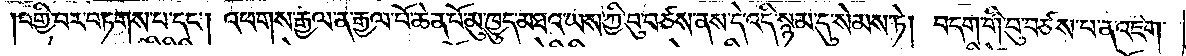བགྱི་བར་བཏགས་པ་དང༌། འཕགས་རྒྱལ་ན་རྒྱལ་པོ་ཆེན་པོ་མུ་ཁྱུད་མཐའ་ཡས་ཀྱི་བུ་བཙས་ནས་དེ་འདི་སྙམ་དུ་སེམས་ཏེ། བདག་གི་བུ་བཙས་པ་ན་འཇིག་
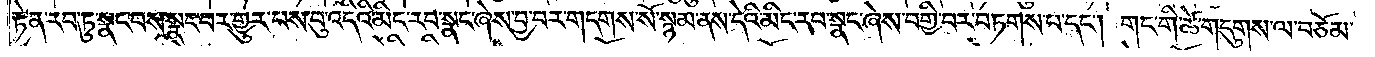རྟེན་རབ་ཏུ་སྣང་བས་སྣང་བར་གྱུར་བས་བུ་འདིའི་མིང་རབ་སྣང་ཞེས་བྱ་བར་གདགས་སོ་སྙམ་ནས་དེའི་མིང་རབ་སྣང་ཞེས་བགྱི་བར་བཏགས་པ་དང༌། གང་གི་ཚེ་གདུགས་ལ་བཅོམ་
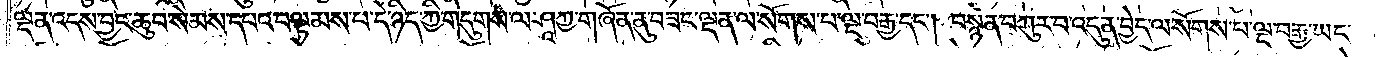ལྡན་འདས་བྱང་ཆུབ་སེམས་དཔའ་བལྟམས་པ་དེ་ཉིད་ཀྱི་གདུགས་ལ་ཤཱཀྱ་གཞོན་ནུ་བཟང་ལྡན་ལ་སོགས་པ་ལྔ་བརྒྱ་དང༌། བསྙེན་བཀུར་བ་འདུན་བྱེད་ལ་སོགས་པ་ལྔ་བརྒྱ་ཡང་
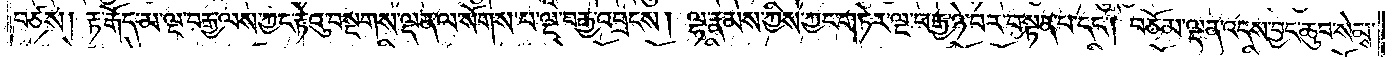བཙས། རྟ་རྒོད་མ་ལྔ་བརྒྱ་ལས་ཀྱང་རྟེའུ་བསྔགས་ལྡན་ལ་སོགས་པ་ལྔ་བརྒྱ་འབྲངས། ལྷ་རྣམས་ཀྱིས་ཀྱང་གཏེར་ལྔ་བརྒྱ་ཉེ་བར་བསྟན་པ་དང༌། བཅོམ་ལྡན་འདས་བྱང་ཆུབ་སེམས་
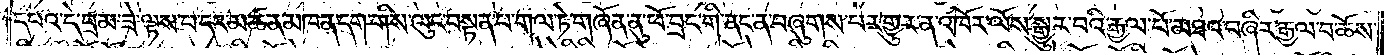དཔའ་དེ་བྲམ་ཟེ་ལྟས་པ་དང་མཚན་མཁན་དག་གིས་ལུང་བསྟན་པ་གལ་ཏེ་གཞོན་ནུ་ཕོ་བྲང་གི་ནང་ན་བཞུགས་པར་གྱུར་ན་འཁོར་ལོས་སྒྱུར་བའི་རྒྱལ་པོ་མཐའ་བཞིར་རྒྱལ་བ་ཆོས་
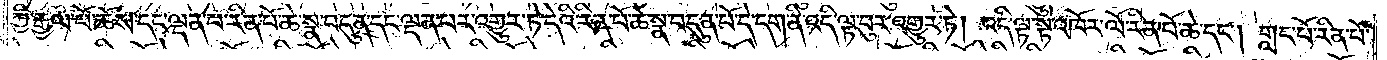ཀྱི་རྒྱལ་པོ་ཆོས་དང་ལྡན་པ་རིན་པོ་ཆེ་སྣ་བདུན་དང་ལྡན་པར་འགྱུར་ཏེ་དེའི་རིན་པོ་ཆེ་སྣ་བདུན་པོ་དེ་དག་ནི་འདི་ལྟ་བུར་འགྱུར་ཏེ། འདི་ལྟ་སྟེ་འཁོར་ལོ་རིན་པོ་ཆེ་དང༌། གླང་པོ་རིན་པོ་
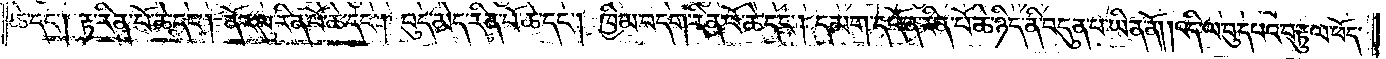ཆེ་དང༌། རྟ་རིན་པོ་ཆེ་དང༌། ནོར་བུ་རིན་པོ་ཆེ་དང༌། བུད་མེད་རིན་པོ་ཆེ་དང༌། ཁྱིམ་བདག་རིན་པོ་ཆེ་དང༌། དམག་དཔོན་རིན་པོ་ཆེ་ཉིད་ནི་བདུན་པ་ཡིན་ནོ། །འདི་ལ་བུ་དཔའ་བ་རྟུལ་ཕོད་
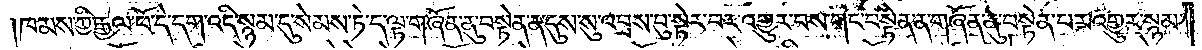ཁམས་ཀྱི་རྒྱལ་པོ་དེ་དག་འདི་སྙམ་དུ་སེམས་ཏེ་ད་ལྟ་གཞོན་ནུ་བསྟེན་ན་དུས་སུ་འབྲས་བུ་སྟེར་བར་འགྱུར་པས་གང་བསྟེན་ན་གཞོན་ནུ་བསྟེན་པར་འགྱུར་སྙམ་
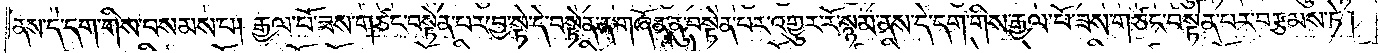ནས་དེ་དག་གིས་བསམས་པ། རྒྱལ་པོ་ཟས་གཙང་བསྟེན་པར་བྱ་སྟེ་དེ་བསྟེན་ན་གཞོན་ནུ་བསྟེན་པར་འགྱུར་རོ་སྙམ་ནས་དེ་དག་གིས་རྒྱལ་པོ་ཟས་གཙང་བསྟེན་པར་བརྩམས་ཏེ།
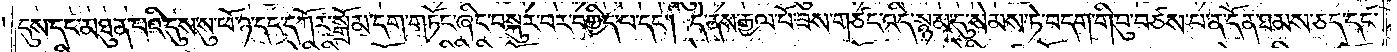དུས་དང་མཐུན་པའི་དུས་སུ་ཕོ་ཉ་དང་དཀོར་སྒྲོམ་དག་གཏོང་ཞིང་བསྐུར་བར་བགྱིད་པ་དང༌། དེ་ནས་རྒྱལ་པོ་ཟས་གཙང་འདི་སྙམ་དུ་སེམས་ཏེ་བདག་གི་བུ་བཙས་པ་ན་དོན་ཐམས་ཅད་དང་
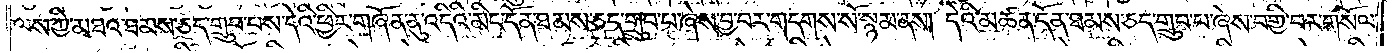ལས་ཀྱི་མཐའ་ཐམས་ཅད་གྲུབ་པས་དེའི་ཕྱིར་གཞོན་ནུ་འདིའི་མིང་དོན་ཐམས་ཅད་གྲུབ་པ་ཞེས་བྱ་བར་གདགས་སོ་སྙམ་ནས། དེའི་མཚན་དོན་ཐམས་ཅད་གྲུབ་པ་ཞེས་བགྱི་བར་གསོལ་
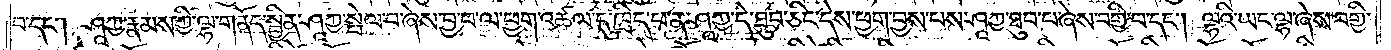བ་དང༌། ཤཱཀྱ་རྣམས་ཀྱི་ལྷ་གནོད་སྦྱིན་ཤཱཀྱ་སྤེལ་བ་ཞེས་བྱ་བ་ལ་ཕྱག་འཚལ་དུ་ཁྲིད་པ་ན་ཤཱཀྱ་དེ་ཐུབ་ཅིང་དེས་ཕྱག་བྱས་པས་ཤཱཀྱ་ཐུབ་པ་ཞེས་བགྱི་བ་དང༌། ལྷའི་ཡང་ལྷ་ཞེས་བགྱི་
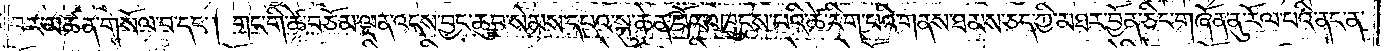བར་མཚན་གསོལ་བ་དང༌། གང་གི་ཚེ་བཅོམ་ལྡན་འདས་བྱང་ཆུབ་སེམས་དཔའ་སྐུ་ཆེན་པོར་འཁྲུངས་པའི་ཚེ་རིག་པའི་གནས་ཐམས་ཅད་ཀྱི་མཐར་བྱོན་ཅིང་གཞོན་ནུ་རོལ་པའི་ནང་ན་
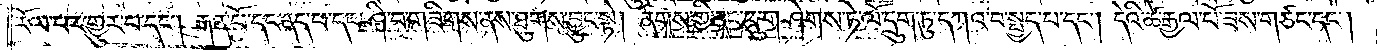རོལ་པར་གྱུར་པ་དང༌། རྒན་པོ་དང་ནད་པ་དང་ཤི་བ་གཟིགས་ནས་ཐུགས་བྱུང་སྟེ། ནགས་ཀྱི་ནང་དུ་གཤེགས་ཏེ་ལོ་དྲུག་ཏུ་དཀའ་བ་སྤྱད་པ་དང༌། དེའི་ཚེ་རྒྱལ་པོ་ཟས་གཙང་དང༌།
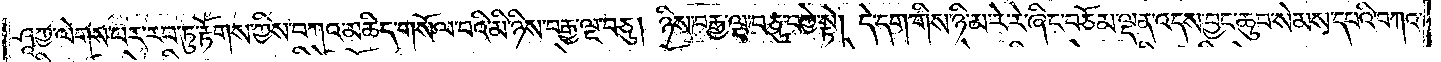ཤཱཀྱ་ལེགས་པར་རབ་ཏུ་རྟོགས་ཀྱིས་བཀའ་མཆིད་གསོལ་བའི་མི་ཉིས་བརྒྱ་ལྔ་བཅུ། ཉིས་བརྒྱ་ལྔ་བཅུ་བཀྱེ་སྟེ། དེ་དག་གིས་ཉི་མ་རེ་རེ་ཞིང་བཅོམ་ལྡན་འདས་བྱང་ཆུབ་སེམས་དཔའི་བཀའ་
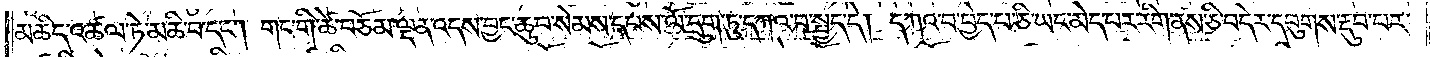མཆིད་འཚལ་ཏེ་མཆི་བ་དང༌། གང་གི་ཚེ་བཅོམ་ལྡན་འདས་བྱང་ཆུབ་སེམས་དཔས་ལོ་དྲུག་ཏུ་དཀའ་བ་སྤྱད་དེ། དཀའ་བ་བྱེད་པ་ཅི་ཡང་མེད་པར་རིག་ནས་ཅི་བདེར་དབུགས་རྔུབ་པར་
